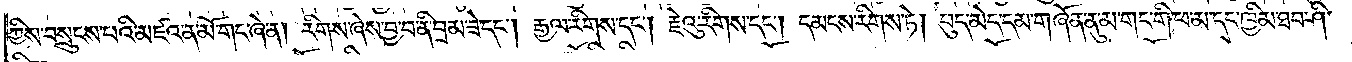ཀྱིས་བསྲུངས་པའི་མཛའ་ན་མོ་གང་ཞེ་ན། རིགས་ཞེས་བྱ་བ་ནི་བྲམ་ཟེ་དང༌། རྒྱལ་རིགས་དང༌། རྗེའུ་རིགས་དང༌། དམངས་རིགས་ཏེ། བུད་མེད་དམ་གཞོན་ནུ་མ་གང་གི་ཕ་མ་དང་ཁྱིམ་ཐབ་ཤི་
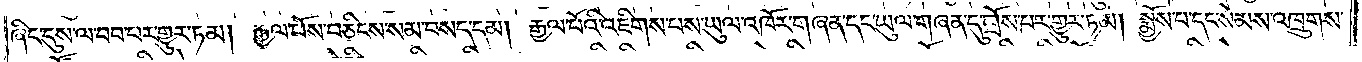ཞིང་དུས་ལ་བབ་པར་གྱུར་ཏམ། རྒྱལ་པོས་བཅིངས་སམ་བསད་དམ། རྒྱལ་པོའི་འཇིགས་པས་ཡུལ་འཁོར་གཞན་དང་ཡུལ་གཞན་དུ་བྲོས་པར་གྱུར་ཏམ། སྨྱོས་པ་དང་སེམས་འཁྲུགས་
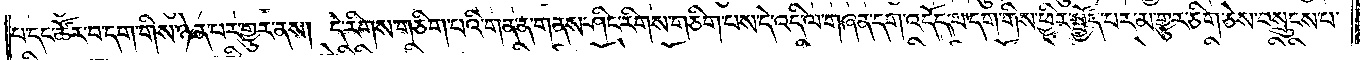པ་དང་ཚོར་བ་དག་གིས་ཉེན་པར་གྱུར་ནས། དེ་རིགས་གཅིག་པའི་གན་ན་གནས་ཤིང་རིགས་གཅིག་པས་དེ་འདི་ལ་གཞན་དག་འདོད་པ་དག་གིས་ཕྱིར་སྤྱོད་པར་མ་གྱུར་ཅིག་ཅེས་བསྲུངས་པ་
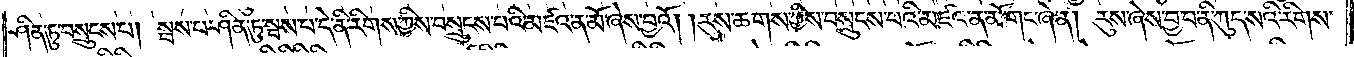ཤིན་ཏུ་བསྲུངས་པ། སྦས་པ་ཤིན་ཏུ་སྦས་པ་དེ་ནི་རིགས་ཀྱིས་བསྲུངས་པའི་མཛའ་ན་མོ་ཞེས་བྱའོ། །རུས་ཆགས་ཀྱིས་བསྲུངས་པའི་མཛའ་ན་མོ་གང་ཞེ་ན། རུས་ཞེས་བྱ་བ་ནི་ཀུད་སའི་རིགས་
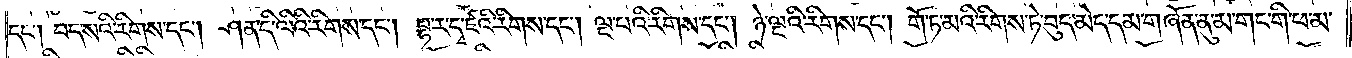དང༌། བད་སའི་རིགས་དང༌། ཤན་དི་ལིའི་རིགས་དང༌། བྷ་ར་དྭ་ཛའི་རིགས་དང༌། ལྔ་པའི་རིགས་དང༌། ཉེ་ལྔའི་རིགས་དང༌། གོ་ཏ་མའི་རིགས་ཏེ་བུད་མེད་དམ་གཞོན་ནུ་མ་གང་གི་ཕ་མ་
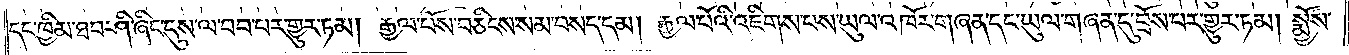དང་ཁྱིམ་ཐབ་ཤི་ཞིང་དུས་ལ་བབ་པར་གྱུར་ཏམ། རྒྱལ་པོས་བཅིངས་སམ་བསད་དམ། རྒྱལ་པོའི་འཇིགས་པས་ཡུལ་འཁོར་གཞན་དང་ཡུལ་གཞན་དུ་བྲོས་པར་གྱུར་ཏམ། སྨྱོས་
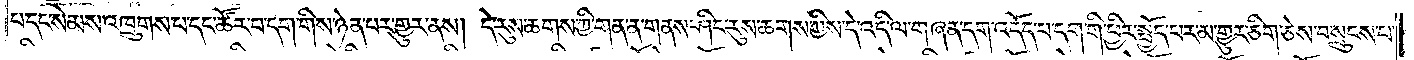པ་དང་སེམས་འཁྲུགས་པ་དང་ཚོར་བ་དག་གིས་ཉེན་པར་གྱུར་ནས། དེ་རུས་ཆགས་ཀྱི་གན་ན་གནས་ཤིང་རུས་ཆགས་ཀྱིས་དེ་འདི་ལ་གཞན་དག་འདོད་པ་དག་གི་ཕྱིར་སྤྱོད་པར་མ་གྱུར་ཅིག་ཅེས་བསྲུངས་པ་
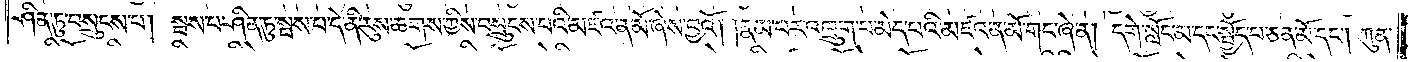ཤིན་ཏུ་བསྲུངས་པ། སྦས་པ་ཤིན་ཏུ་སྦས་པ་དེ་ནི་རུས་ཆགས་ཀྱིས་བསྲུངས་པའི་མཛའ་ན་མོ་ཞེས་བྱའོ། །རྣམ་པར་འཁྲུག་པ་མེད་པའི་མཛའ་ན་མོ་གང་ཞེ་ན། དགེ་སློང་མ་དང་སྤྱོད་པ་ཅན་མོ་དང༌། ཀུན་
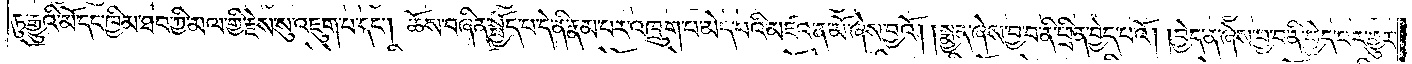ཏུ་རྒྱུའི་མོ་དང་ཁྱིམ་ཐབ་ཀྱི་མལ་གྱི་རྗེས་སུ་འཇུག་པ་དང༌། ཆོས་བཞིན་སྤྱོད་པ་དེ་ནི་རྣམ་པར་འཁྲུག་པ་མེད་པའི་མཛའ་ན་མོ་ཞེས་བྱའོ། །སྨྱན་ཞེས་བྱ་བ་ནི་ཕྲིན་བྱེད་པའོ། །བྱེད་ན་ཞེས་བྱ་བ་ནི་བྱེད་པར་གྱུར་
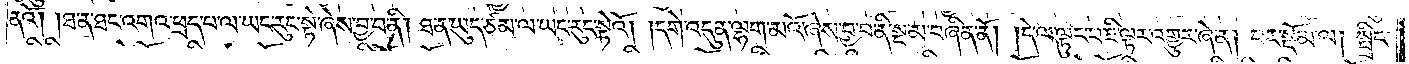ནའོ། །ཐ་ན་ཐང་འགའ་ཕྲད་པ་ལ་ཡང་རུང་སྟེ་ཞེས་བྱ་བ་ནི། ཐ་ན་ཡུད་ཙམ་ལ་ཡང་རུང་སྟེའོ། །དགེ་འདུན་ལྷག་མའོ་ཞེས་བྱ་བ་ནི་སྔ་མ་བཞིན་ནོ། །དེ་ལ་ལྟུང་བ་ཇི་ལྟར་འགྱུར་ཞེ་ན། བར་སྡོམ་ལ། སྤྲིང་
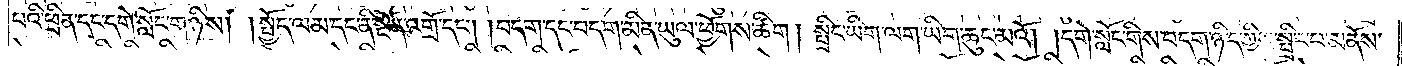པའི་ཕྲིན་དང་དགེ་སློང་གཉིས། །སྤྱོད་ལམ་དང་ནི་སྔོན་འགྲོ་དང༌། །བདག་དང་བདག་མིན་ཡུལ་ཕྱོགས་ཚིག །སྤྲིང་ཡིག་ལག་ཡིག་ཆུང་མའོ། །དགེ་སློང་གིས་བདག་ཉིད་ཀྱིས་སྤྲིང་པ་མནོས་
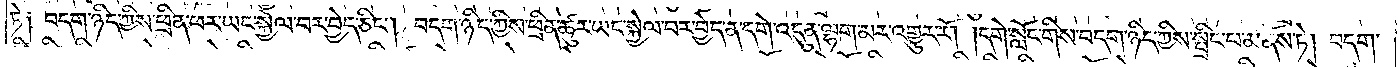ཏེ༑ བདག་ཉིད་ཀྱིས་ཕྲིན་ཕར་ཡང་སྐྱེལ་བར་བྱེད་ཅིང༌། བདག་ཉིད་ཀྱིས་ཕྲིན་ཚུར་ཡང་སྐྱེལ་བར་བྱེད་ན་དགེ་འདུན་ལྷག་མར་འགྱུར་རོ། །དགེ་སློང་གིས་བདག་ཉིད་ཀྱིས་སྤྲིང་པ་མནོས་ཏེ། བདག་
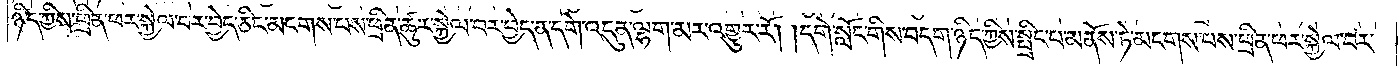ཉིད་ཀྱིས་ཕྲིན་ཕར་སྐྱེལ་བར་བྱེད་ཅིང་མངགས་པས་ཕྲིན་ཚུར་སྐྱེལ་བར་བྱེད་ན་དགེ་འདུན་ལྷག་མར་འགྱུར་རོ། །དགེ་སློང་གིས་བདག་ཉིད་ཀྱིས་སྤྲིང་པ་མནོས་ཏེ་མངགས་པས་ཕྲིན་ཕར་སྐྱེལ་བར་
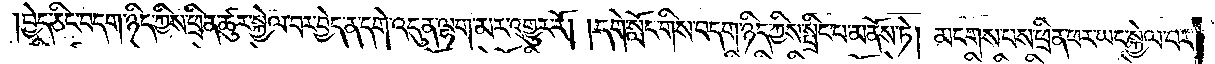བྱེད་ཅིང་བདག་ཉིད་ཀྱིས་ཕྲིན་ཚུར་སྐྱེལ་བར་བྱེད་ན་དགེ་འདུན་ལྷག་མར་འགྱུར་རོ། །དགེ་སློང་གིས་བདག་ཉིད་ཀྱིས་སྤྲིང་པ་མནོས་ཏེ། མངགས་པས་ཕྲིན་པར་ཡང་སྐྱེལ་བར་
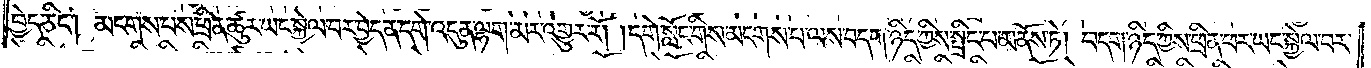བྱེད་ཅིང༌། མངགས་པས་ཕྲིན་ཚུར་ཡང་སྐྱེལ་བར་བྱེད་ན་དགེ་འདུན་ལྷག་མར་འགྱུར་རོ། །དགེ་སློང་གིས་མངགས་པ་ལས་བདག་ཉིད་ཀྱིས་སྤྲིང་པ་མནོས་ཏེ། བདག་ཉིད་ཀྱིས་ཕྲིན་ཕར་མར་སྐྱེལ་བར་
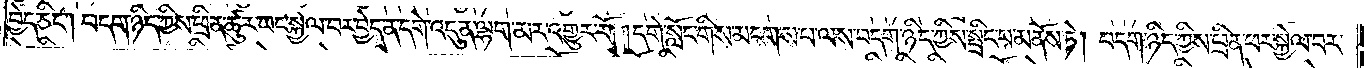བྱེད་ཅིང༌། བདག་ཉིད་ཀྱིས་ཕྲིན་ཚུར་ཡང་སྐྱེལ་བར་བྱེད་ན་དགེ་འདུན་ལྷག་མར་འགྱུར་རོ། །དགེ་སློང་གིས་མངགས་པ་ལས་བདག་ཉིད་ཀྱིས་སྤྲིང་པ་མནོས་ཏེ། བདག་ཉིད་ཀྱིས་ཕྲིན་ཕར་སྐྱེལ་བར་
